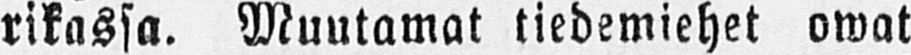rikassa. Muutamat tiedemiehet owat
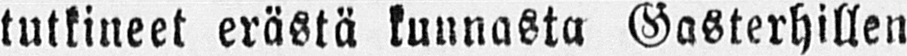tutkineet erästä kunnasta Gasterhillen
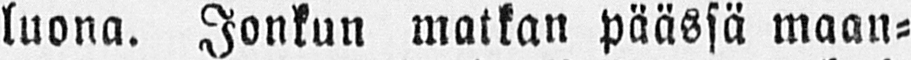luona. Jonkun matkan päässä maan-
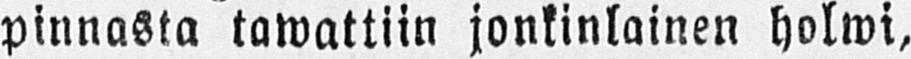pinnasta tawattiin jonkinlainen holwi,
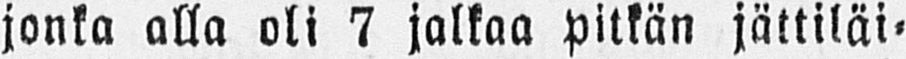jonka alla oli 7 jalkaa pitkän jättiläi-
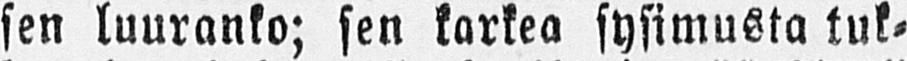sen luuranko; sen karkea sysimusta tuk-
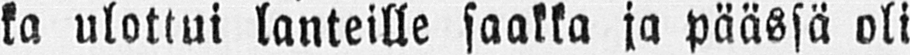ka ulottui lanteille saakka ja päässä oli
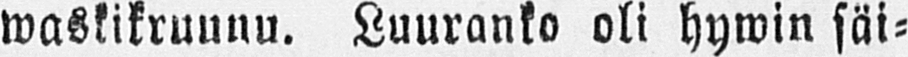waskikruunu. Luuranko oli hywin säi-
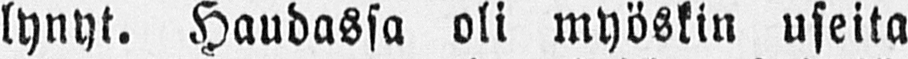lynyt. Haudassa oli myöskin useita
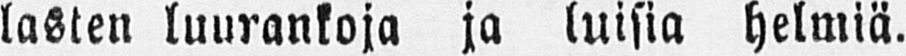lasten luurankoja ja luisia helmiä.
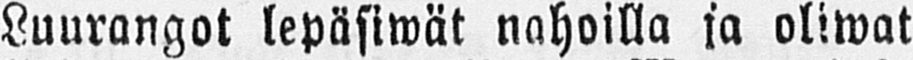Luurangot lepäsiwät nahoilla ja oliwat
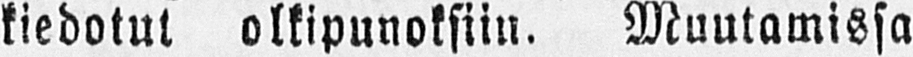kiedotut olkipunoksiin. Muutamissa
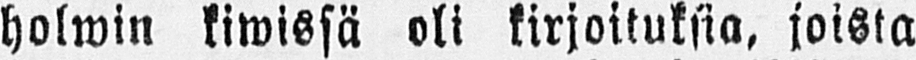holwin kiwissä oli kirjoituksia, joista
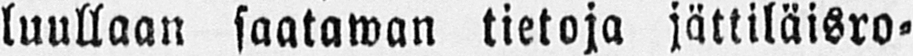luullaan saatawan tietoja jättiläisro-
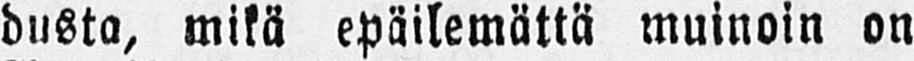dusta, mikä epäilemättä muinoin on
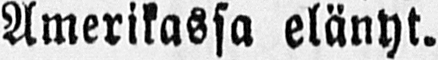Amerikassa elänyt.
